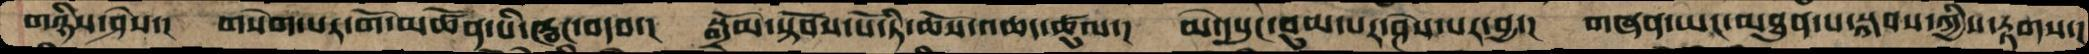གཉིས་ཤེས་།   གསེག་པར་གོ་མཚོན་པི་ཝང་བདབ་།  སྒྲོམ་སྟོབས་པོ་ཏི་ཆོས་འཆད་ཚུལ་།  མེ་དཔུང་བུམ་པར་ཤེས་པར་བྱ་།  གཞན་ཡང་མཐུན་པ་སྐབས་ཀྱིས་རྟགས་།
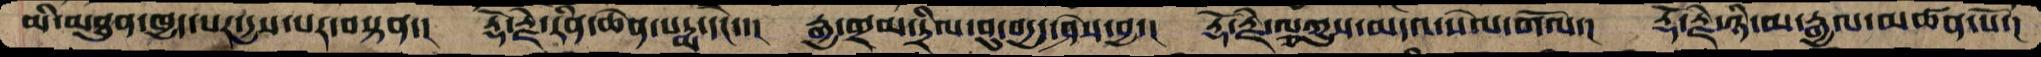མི་མཐུན་ཁྱད་པར་དྱས་པར་བསྟན་།  རྡོ་རྗེ་རིན་ཆེན་པདྨ་དེང་་།  རྒྱ་གྲམ་དྲིལ་བུ་བདྱད་ཤེས་བྱ་།  རྡོ་རྗེ་ལྕཀྱུས་མདའ་སེལ་གོལ་།  རྡོ་རྗེ་ཉི་མ་རྒྱལ་མཚན་པོ་།
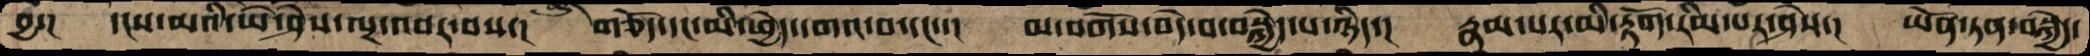བྱ་།  དངས་མའི་ཡེ་ཤེས་ལྔ་འབར་བས་།  གཅོད་དང་མི་ཕྱེད་དགའ་བ་དང་་།  མ་བགོས་བདེ་བ་བསྐྱེད་པ་ཉིད་།  རྣམ་པར་མི་རྟོག་རིམ་པར་ཤེས་།  ཡོན་ཏན་བསྐྱེད་
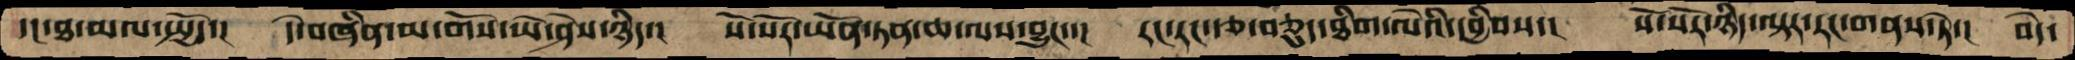དང་ཐ་མལ་སྤྱོད་།  དེ་བཞིན་མ་གོས་ཡེ་ཤེས་ཉིད་།  སོ་སོར་ཡོན་ཏན་ཆ་ལས་བྱུང་་།  རང་རང་རྩ་བཅུད་ཐིག་ལེའི་དབྱིབས་།  སོ་སོར་ཉིད་ལྟར་རང་གནས་ཏེ་།  བདེ་
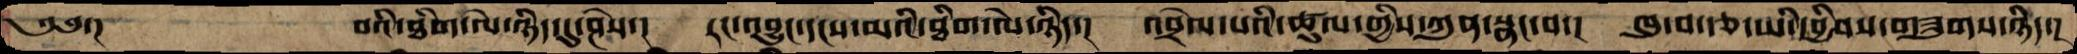༄༅་།     བའི་ཐིག་ལེ་ཉིད་དུ་ཤེས་།  རང་འབྱུང་དངས་མའི་ཐིག་ལེ་ཉིད་།  འབྲེལ་པའི་ཚུལ་གྱིས་ཀུན་སྣང་བ་།  ཁུ་བ་རྩ་ཡི་དབྱིབས་གཟུགས་ཉིད་།
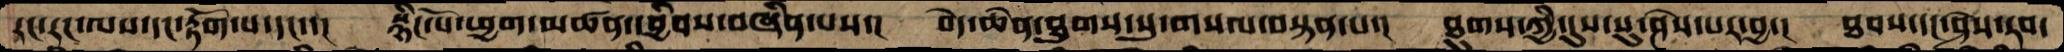རང་རང་ལས་དང་རྟོག་པ་ང་་།  སྙིང་པོ་ཕྱག་མཚན་དབྱིབས་བཞིན་པས་།  བདེ་ཆེན་ཐུགས་སུ་གསལ་བསྟན་པ་།  ཐུགས་ཀྱི་དུས་སུ་ཤེས་པར་བྱ་།  ཐབས་དང་ཤེས་རབ་
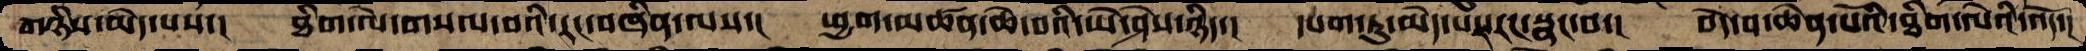གཉིས་མེད་པས་།  ཐིག་ལེ་གསལ་བའི་རང་བཞིན་ལས་།  ཕྱག་མཚན་ཆེ་བའི་ཡེ་ཤེས་ཉིད་།  དཔག་ཏུ་མེད་པར་རང་སྣང་བ་།  བདེ་བ་ཆེན་པོའི་ཐིག་ལེའི་འོད་།
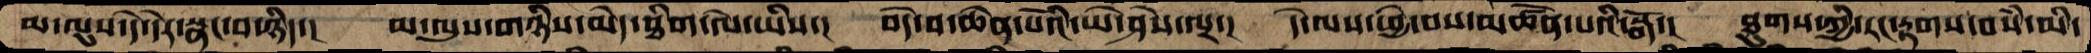མ་ལུས་དེ་དེར་སྣང་བ་ཉིད་།  མ་ལུས་གཉིས་མེད་ཐིག་ལེ་ཡིས་།  བདེ་བ་ཆེན་པོའི་ཡེ་ཤེས་ལྔ་།  དེ་ལས་ཕྱེ་བས་མཚོན་པའི་སྒོ་།  ཐུགས་ཀྱི་རང་རྟགས་བསཾ་མི་
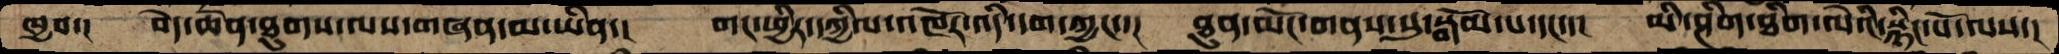ཁྱབ་།  བདེ་ཆེན་ཐུགས་ལས་གཞན་མ་ཡིན་།  གང་ཕྱིར་དཀྱིལ་འཁོར་འདི་དག་ཀྱང་་།  ཐུན་མོང་གནས་སུ་སྒོམ་པ་དང་་།  མི་ཤིག་ཐིག་ལེའི་སྙིང་པོ་ལས་།
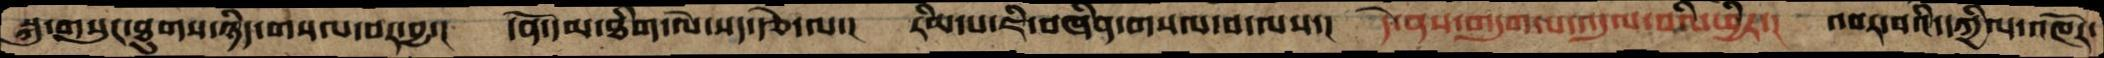སྐུ་གསུང་ཐུགས་ཉིད་གསལ་བར་བྱ་།  དོན་དམ་ཐིག་ལེ་སད་རྩེ་ལ་།  རིམ་པ་ཇི་བཞིན་གསལ་བ་ལས་།  དེ་ནས་གདུག་པ་འདུལ་བའི་ཕྱིར་།  འབར་བའི་དཀྱིལ་འཁོར་
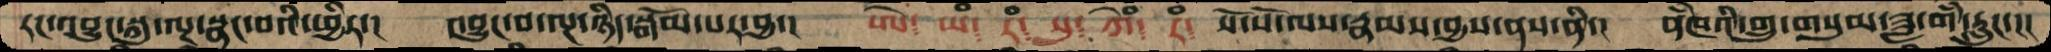རང་བྱུང་སྐུ་ལྔ་སྣང་བའི་ཕྱིར་།  འབྱུང་བ་ལྔ་ཉིད་སྒོམ་པར་བྱ་།  ཨེ༴ ཡཾ༴  རཾ༴  སུ༴  ཀེཾ༴  རཾ༴  སོ་སོ་ལས་རྣམས་བྱས་ནས་ནི་།  ནཾཁའི་གྲུ་གསུམ་ཟླ་གཾ་རླུང་།།།
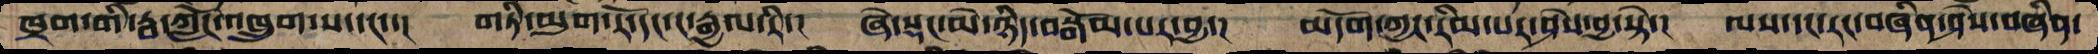ཁྲག་གི་རྦ་ཀློང་འཁྲུག་པ་དང་་།  གཏི་མུག་རོ་དང་ང་རྒྱལ་རི་།  ཞེ་སྡང་མེ་ཉིད་བསྒོམ་པར་བྱ།  མདོག་ཀྱང་རིམ་པར་ཤེས་བྱ་སྟེ་།   ལས་དང་རང་བཞིན་ཤེས་བཞིན་
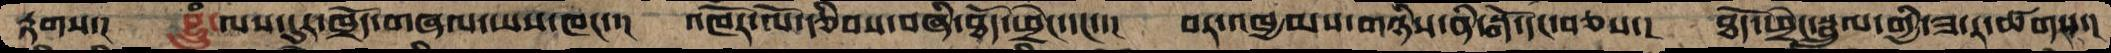རྟགས་།  བྷྲུཾ་ལས་དུར་ཁྲོད་གཞལ་ཡས་ཁང་་།  འཁོར་ལོ་རྩིབས་བཞི་ཐོད་ཕྲེང་དང་་།  བར་འཁྱམས་གཉིས་ནི་སྒོ་དང་བཅས་།  ཐོད་ཕྲེང་སྦྲུལ་གྱི་ཟ་ར་ཚགས་།
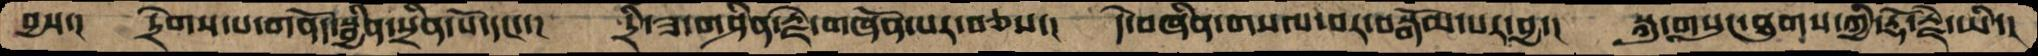བྱས་།    དྲེགས་པ་གནོད་སྦྱིན་སྲིན་པོ་དང་་།    དྲི་ཟ་གཤིན་རྗེ་གཞོན་པར་བཅས་།   དེ་བཞིན་གསལ་བར་བསྒོམ་པར་བྱ་།  སྐུ་གསུང་ཐུགས་ཀྱི་རྡོ་རྗེ་ཡི་།་
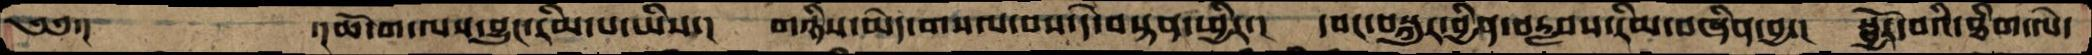༄༅་།          ་།ཆོ་ག་ལས་བྱུང་རིམ་པ་ཡིས་།  གཉིས་མེ་གསལ་བས་དེ་བསྟན་ཕྱིར་།  དབང་བསྐུར་བྱིན་བརླབས་རིམ་བཞིན་བྱ་།  སྦྱོར་བའི་ཐིག་ལེ་
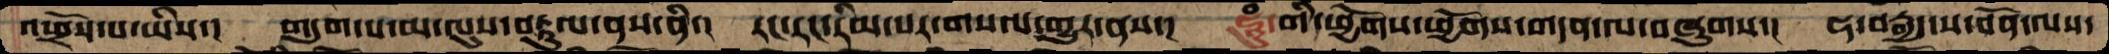འཕྲོས་པ་ཡིས་།  གདུག་པ་མ་ལུས་བརྟུལ་ནས་ནི་།  རང་རང་རིམ་པར་གསལ་གྱུར་ནས་།   ཧཱུཾ་གི་ཕྱོགས་ཕྱོགས་གདན་ལ་བཞུགས་།  ཧ་བརྒྱད་ས་བོན་ལས་
